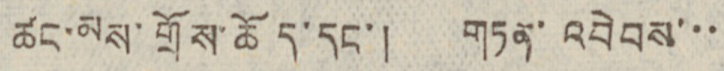ཚང་མས་གྲོས་ཆོད་དང་། གཏན་འབེབས་་་
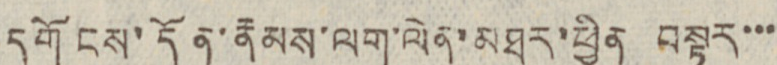དགོངས་དོན་རྣམས་ལག་ལེན་མཐར་ཕྱིན བསྟར་་་
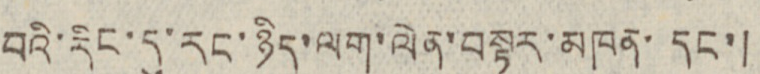བའི་རིང་དུ་རང་ཉིད་ལག་ལེན་བསྟར་མཁན་དང་།
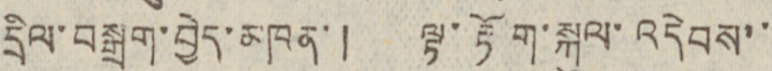དྲིལ་བསྒྲག་བྱེད་མཁན་། ལྟ་རྟོག་སྐུལ་འདེབས་་
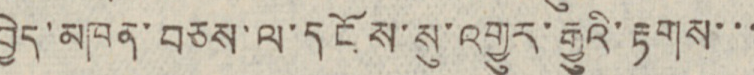བྱེད་མཁན་བཅས་ལ་དངོས་སུ་འགྱུར་རྒྱུའི་རྟགས་་་
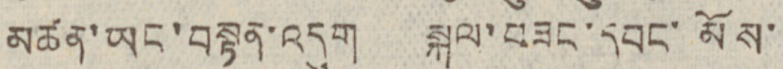མཚན་ཡང་བསྟན་འདུག སྐལ་བཟང་དབང་མོས་
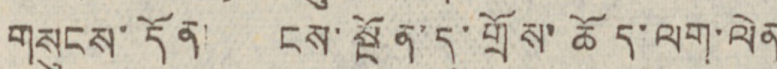གསུངས་དོན། ངས་སྔོན་དུ་གྲོས་ཆོད་ལག་ལེན
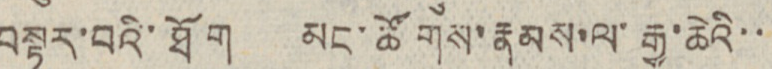བསྟར་བའི་ཐོག མང་ཚོགས་རྣམས་ལ་རྒྱ་ཆེའི་་
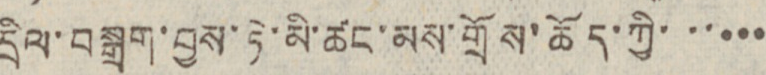དྲིལ་བསྒྲག་བྱས་ཏེ་མི་ཚང་མས་གྲོས་ཆོད་ཀྱི་་་་་་
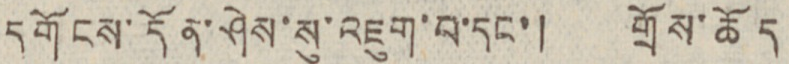དགོངས་དོན་ཤེས་སུ་འཇུག་པ་དང་། གྲོས་ཆོད
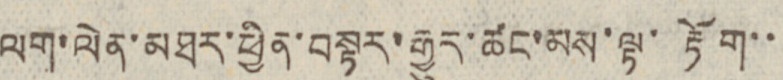ལག་ལེན་མཐར་ཕྱིན་བསྟར་རྒྱུར་ཚང་མས་ལྟ་རྟོག་་
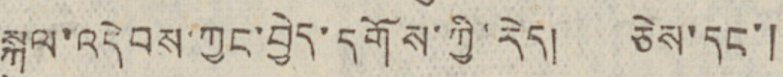སྐུལ་འདེབས་ཀྱང་བྱེད་དགོས་ཀྱི་རེད། ཅེས་དང་།
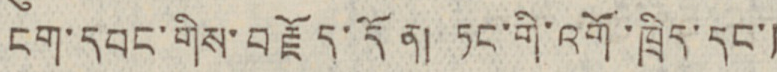ངག་དབང་གིས་བརྗོད་དོན། ཏང་གི་འགོ་ཁྲིད་དང་།
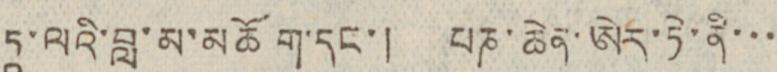ཏཱ་ལའི་བླ་མ་མཆོག་དང་། པཎ་ཆེན་ཨེར་ཏེ་ནི་་་
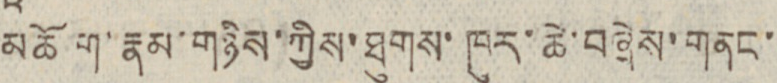མཆོག་རྣམ་གཉིས་ཀྱིས་ཐུགས་ཁུར་ཆེ་བཞེས་གནང་
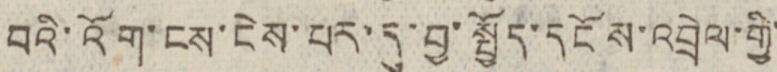བའི་འོག་ངས་ངེས་པར་དུ་བྱ་སྤྱོད་དངོས་འབྲེལ་གྱི་
